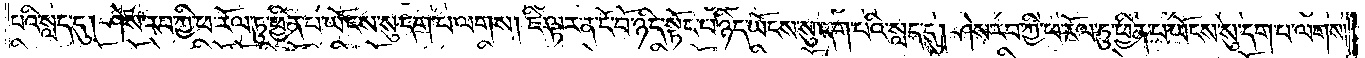པའི་སླད་དུ། ཤེས་རབ་ཀྱི་ཕ་རོལ་ཏུ་ཕྱིན་པ་ཡོངས་སུ་དག་པ་ལགས། ཇི་ལྟར་ན་ངོ་བོ་ཉིད་སྟོང་པ་ཉིད་ཡོངས་སུ་དག་པའི་སླད་དུ། ཤེས་རབ་ཀྱི་ཕ་རོལ་ཏུ་ཕྱིན་པ་ཡོངས་སུ་དག་པ་ལགས།
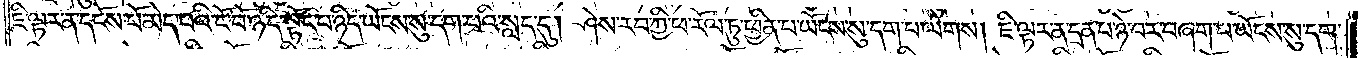ཇི་ལྟར་ན་དངོས་པོ་མེད་པའི་ངོ་བོ་ཉིད་སྟོང་པ་ཉིད་ཡོངས་སུ་དག་པའི་སླད་དུ། ཤེས་རབ་ཀྱི་ཕ་རོལ་ཏུ་ཕྱིན་པ་ཡོངས་སུ་དག་པ་ལགས། ཇི་ལྟར་ན་དྲན་པ་ཉེ་བར་བཞག་པ་ཡོངས་སུ་དག་
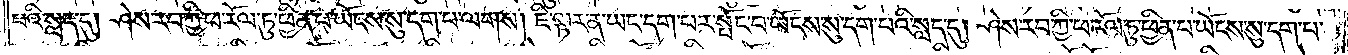པའི་སླད་དུ། ཤེས་རབ་ཀྱི་ཕ་རོལ་ཏུ་ཕྱིན་པ་ཡོངས་སུ་དག་པ་ལགས། ཇི་ལྟར་ན་ཡང་དག་པར་སྤོང་བ་ཡོངས་སུ་དག་པའི་སླད་དུ། ཤེས་རབ་ཀྱི་ཕ་རོལ་ཏུ་ཕྱིན་པ་ཡོངས་སུ་དག་པ་
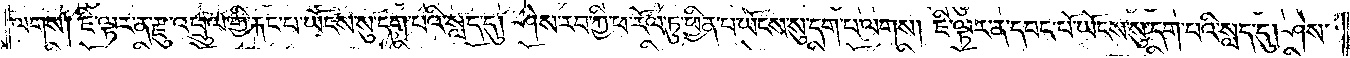ལགས། ཇི་ལྟར་ན་རྫུ་འཕྲུལ་གྱི་རྐང་པ་ཡོངས་སུ་དག་པའི་སླད་དུ། ཤེས་རབ་ཀྱི་ཕ་རོལ་ཏུ་ཕྱིན་པ་ཡོངས་སུ་དག་པ་ལགས། ཇི་ལྟར་ན་དབང་པོ་ཡོངས་སུ་དག་པའི་སླད་དུ། ཤེས་
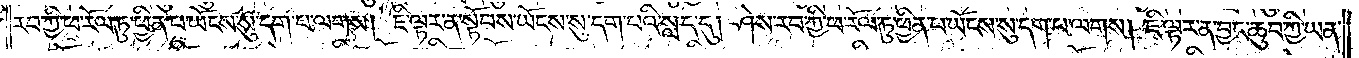རབ་ཀྱི་ཕ་རོལ་ཏུ་ཕྱིན་པ་ཡོངས་སུ་དག་པ་ལགས། ཇི་ལྟར་ན་སྟོབས་ཡོངས་སུ་དག་པའི་སླད་དུ། ཤེས་རབ་ཀྱི་ཕ་རོལ་ཏུ་ཕྱིན་པ་ཡོངས་སུ་དག་པ་ལགས། ཇི་ལྟར་ན་བྱང་ཆུབ་ཀྱི་ཡན་
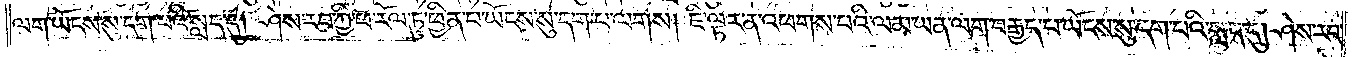ལག་ཡོངས་སུ་དག་པའི་སླད་དུ། ཤེས་རབ་ཀྱི་ཕ་རོལ་ཏུ་ཕྱིན་པ་ཡོངས་སུ་དག་པ་ལགས། ཇི་ལྟར་ན་འཕགས་པའི་ལམ་ཡན་ལག་བརྒྱད་པ་ཡོངས་སུ་དག་པའི་སླད་དུ། ཤེས་རབ་
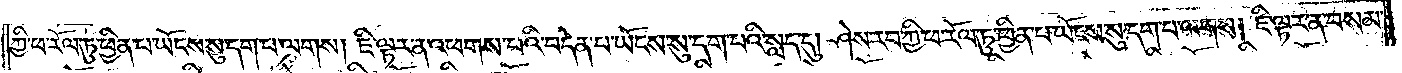ཀྱི་ཕ་རོལ་ཏུ་ཕྱིན་པ་ཡོངས་སུ་དག་པ་ལགས། ཇི་ལྟར་ན་འཕགས་པའི་བདེན་པ་ཡོངས་སུ་དག་པའི་སླད་དུ། ཤེས་རབ་ཀྱི་ཕ་རོལ་ཏུ་ཕྱིན་པ་ཡོངས་སུ་དག་པ་ལགས། ཇི་ལྟར་ན་བསམ་
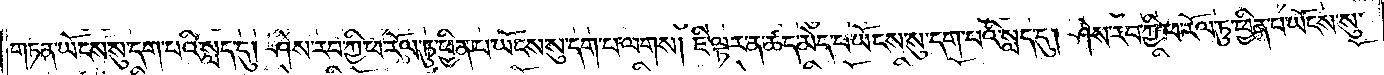གཏན་ཡོངས་སུ་དག་པའི་སླད་དུ། ཤེས་རབ་ཀྱི་ཕ་རོལ་ཏུ་ཕྱིན་པ་ཡོངས་སུ་དག་པ་ལགས། ཇི་ལྟར་ན་ཚད་མེད་པ་ཡོངས་སུ་དག་པའི་སླད་དུ། ཤེས་རབ་ཀྱི་ཕ་རོལ་ཏུ་ཕྱིན་པ་ཡོངས་སུ་
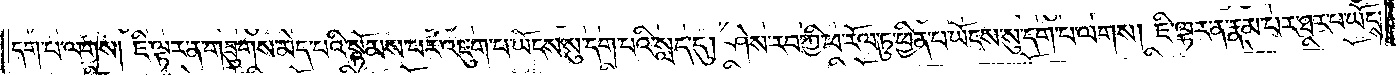དག་པ་ལགས། ཇི་ལྟར་ན་གཟུགས་མེད་པའི་སྙོམས་པར་འཇུག་པ་ཡོངས་སུ་དག་པའི་སླད་དུ། ཤེས་རབ་ཀྱི་ཕ་རོལ་ཏུ་ཕྱིན་པ་ཡོངས་སུ་དག་པ་ལགས། ཇི་ལྟར་ན་རྣམ་པར་ཐར་པ་ཡོངས་
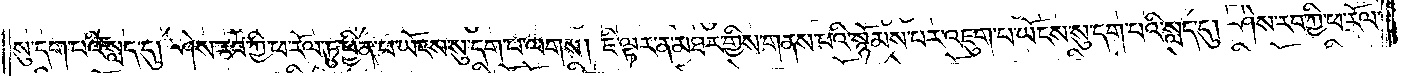སུ་དག་པའི་སླད་དུ། ཤེས་རབ་ཀྱི་ཕ་རོལ་ཏུ་ཕྱིན་པ་ཡོངས་སུ་དག་པ་ལགས། ཇི་ལྟར་ན་མཐར་གྱིས་གནས་པའི་སྙོམས་པར་འཇུག་པ་ཡོངས་སུ་དག་པའི་སླད་དུ། ཤེས་རབ་ཀྱི་ཕ་རོལ་
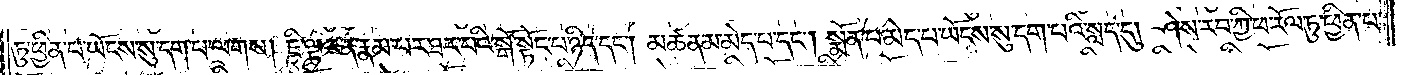ཏུ་ཕྱིན་པ་ཡོངས་སུ་དག་པ་ལགས། ཇི་ལྟར་ན་རྣམ་པར་ཐར་པའི་སྒོ་སྟོང་པ་ཉིད་དང༌། མཚན་མ་མེད་པ་དང༌། སྨོན་པ་མེད་པ་ཡོངས་སུ་དག་པའི་སླད་དུ། ཤེས་རབ་ཀྱི་ཕ་རོལ་ཏུ་ཕྱིན་པ་
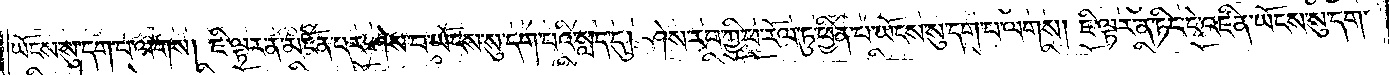ཡོངས་སུ་དག་པ་ལགས། ཇི་ལྟར་ན་མངོན་པར་ཤེས་པ་ཡོངས་སུ་དག་པའི་སླད་དུ། ཤེས་རབ་ཀྱི་ཕ་རོལ་ཏུ་ཕྱིན་པ་ཡོངས་སུ་དག་པ་ལགས། ཇི་ལྟར་ན་ཏིང་ངེ་འཛིན་ཡོངས་སུ་དག་
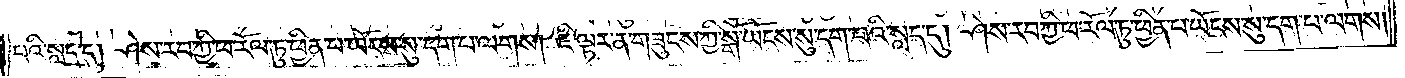པའི་སླད་དུ། ཤེས་རབ་ཀྱི་ཕ་རོལ་ཏུ་ཕྱིན་པ་ཡོངས་སུ་དག་པ་ལགས། ཇི་ལྟར་ན་གཟུངས་ཀྱི་སྒོ་ཡོངས་སུ་དག་པའི་སླད་དུ། ཤེས་རབ་ཀྱི་ཕ་རོལ་ཏུ་ཕྱིན་པ་ཡོངས་སུ་དག་པ་ལགས།
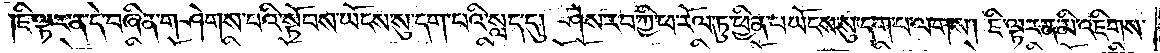ཇི་ལྟར་ན་དེ་བཞིན་གཤེགས་པའི་སྟོབས་ཡོངས་སུ་དག་པའི་སླད་དུ། ཤེས་རབ་ཀྱི་ཕ་རོལ་ཏུ་ཕྱིན་པ་ཡོངས་སུ་དག་པ་ལགས། ཇི་ལྟར་ན་མི་འཇིགས་
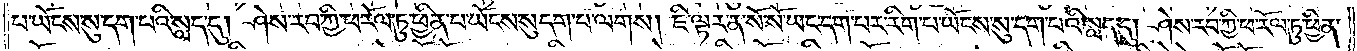པ་ཡོངས་སུ་དག་པའི་སླད་དུ། ཤེས་རབ་ཀྱི་ཕ་རོལ་ཏུ་ཕྱིན་པ་ཡོངས་སུ་དག་པ་ལགས། ཇི་ལྟར་ན་སོ་སོ་ཡང་དག་པར་རིག་པ་ཡོངས་སུ་དག་པའི་སླད་དུ། ཤེས་རབ་ཀྱི་ཕ་རོལ་ཏུ་ཕྱིན་
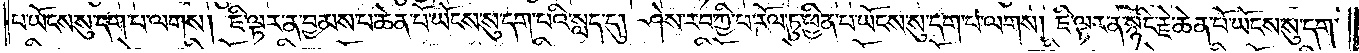པ་ཡོངས་སུ་དག་པ་ལགས། ཇི་ལྟར་ན་བྱམས་པ་ཆེན་པོ་ཡོངས་སུ་དག་པའི་སླད་དུ། ཤེས་རབ་ཀྱི་ཕ་རོལ་ཏུ་ཕྱིན་པ་ཡོངས་སུ་དག་པ་ལགས། ཇི་ལྟར་ན་སྙིང་རྗེ་ཆེན་པོ་ཡོངས་སུ་དག་
